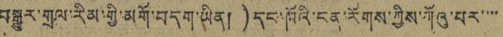བསྒྱུར་གྲལ་རིམ་གྱི་མགོ་བདག་ཡིན།)དང་ཁོའི་ངན་རོགས་ཀྱིས་ཀོའུ་པར་་་་
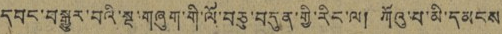དབང་བསྒྱུར་བའི་སྔ་གཞུག་གི་ལོ་བཅུ་བདུན་གྱི་རིང་ལ། ཀོའུ་པ་མི་དམངས
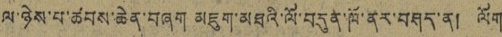ལ་ཉེས་པ་ཚབས་ཆེན་བཞག མཇུག་མཐའི་ལོ་བདུན་ཁོ་ནར་བཤད་ན། ལོག
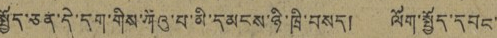སྤྱོད་ཅན་དེ་དག་གིས་ཀོའུ་པ་མི་དམངས་ཉི་ཁྲི་བསད། ལོག་སྤྱོད་དབང་
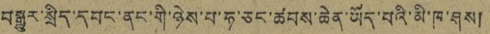བསྒྱུར་སྲིད་དབང་ནང་གི་ཉེས་པ་ཧ་ཅང་ཚབས་ཆེན་ཡོད་པའི་མི་ཁ་ཤས།
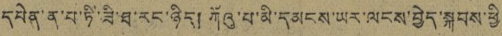དཔེན་ན་པ་ཏི་ཟི་ཐ་རང་ཉིད། ཀོའུ་པ་མི་དམངས་ཡར་ལངས་བྱེད་སྐབས་ཕྱི
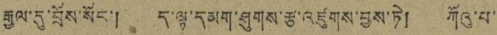རྒྱལ་དུ་བྲོས་སོང་། ད་ལྟ་དམག་ཤུགས་རྩ་འཛུགས་བྱས་ཏེ། ཀོའུ་པ་་
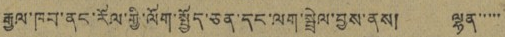རྒྱལ་ཁབ་ནང་རོལ་གྱི་ལོག་སྤྱོད་ཅན་དང་ལག་སྦྲེལ་བྱས་ནས། ལྷན་་་་་་
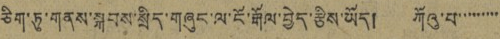ཅིག་ཏུ་གནས་སྐབས་སྲིད་གཞུང་ལ་ངོ་རྒོལ་བྱེད་རྩིས་ཡོད། ཀོའུ་པ་་་་་་་་་
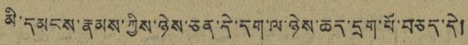མི་དམངས་རྣམས་ཀྱིས་ཉེས་ཅན་དེ་དག་ལ་ཉེས་ཆད་དྲག་པོ་བཅད་དེ།
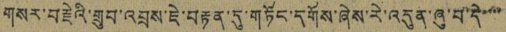གསར་བརྗེའི་གྲུབ་འབྲས་ཇེ་བརྟན་དུ་གཏོང་དགོས་ཞེས་རེ་འདུན་ཞུ་བ་དེ་་་་
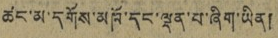ཚང་མ་དགོས་མཁོ་དང་ལྡན་པ་ཞིག་ཡིན།
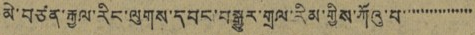མེ་བཙན་རྒྱལ་རིང་ལུགས་དབང་བསྒྱུར་གྲལ་རིམ་གྱིས་ཀོའུ་པ་་་་་་་་་་་་་་་་
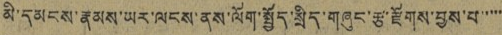མི་དམངས་རྣམས་ཡར་ལངས་ནས་ལོག་སྤྱོད་སྲིད་གཞུང་རྩ་རྫོགས་བྱས་པ་་་་་
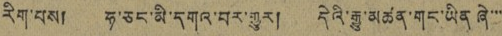རིག་པས། ཧ་ཅང་མི་དགའ་བར་གྱུར། དེའི་རྒྱུ་མཚན་གང་ཡིན ཞེ་་་
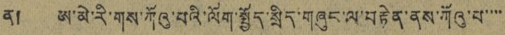ན། ཨ་མེ་རི་གས་ཀོའུ་པའི་ལོག་སྤྱོད་སྲིད་གཞུང་ལ་བརྟེན་ནས་ཀོའུ་པ་་་་
